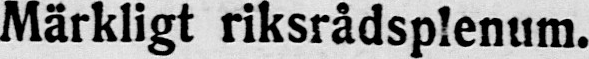Märkligt riksrådsplenum.
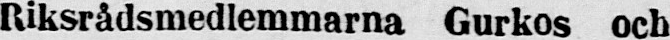Riksrådsmedlemmarna Gurkos och
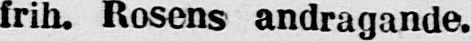frih. Rosens andragande.
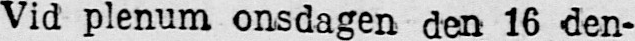Vid plenum onsdagen den 16 den-
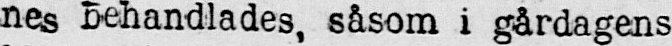nes behandlades, såsom i gårdagens
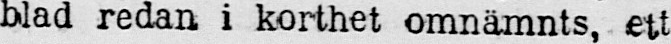blad redan i korthet omnämnts, ett
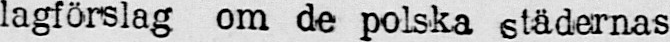lagförslag om de polska städernas
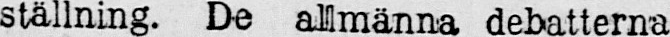ställning. De allmänna debatterna
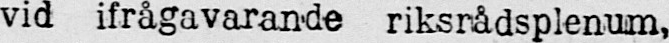vid ifrågavarande riksrådsplenum,
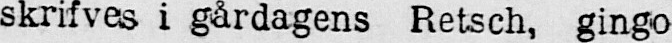skrifves i gårdagens Retsch, gingo
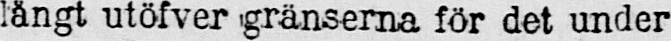längt utöfver gränserna för det under
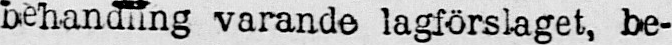behandling varande lagförslaget, be-
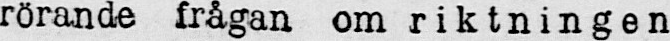rörande frågan om riktningen
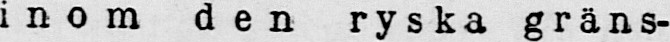inom den ryska gräns-
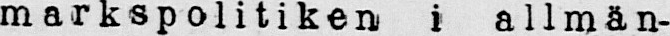markspolitiken i allmän-
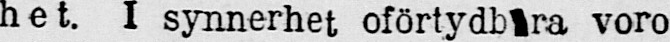het. I synnerhet oförtydblra voro
